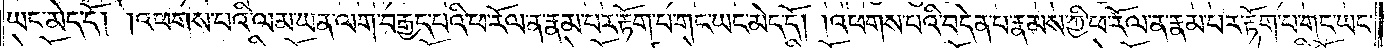ཡང་མེད་དོ། །འཕགས་པའི་ལམ་ཡན་ལག་བརྒྱད་པའི་ཕ་རོལ་ན་རྣམ་པར་རྟོག་པ་གང་ཡང་མེད་དོ། །འཕགས་པའི་བདེན་པ་རྣམས་ཀྱི་ཕ་རོལ་ན་རྣམ་པར་རྟོག་པ་གང་ཡང་
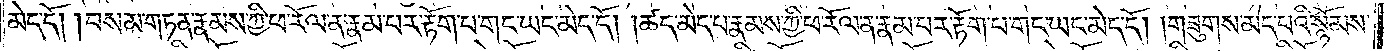མེད་དོ། །བསམ་གཏན་རྣམས་ཀྱི་ཕ་རོལ་ན་རྣམ་པར་རྟོག་པ་གང་ཡང་མེད་དོ། །ཚད་མེད་པ་རྣམས་ཀྱི་ཕ་རོལ་ན་རྣམ་པར་རྟོག་པ་གང་ཡང་མེད་དེ། །གཟུགས་མེད་པའི་སྙོམས་
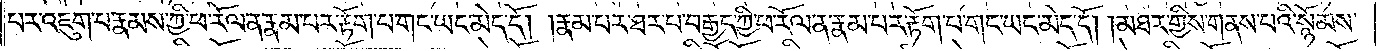པར་འཇུག་པ་རྣམས་ཀྱི་ཕ་རོལ་ན་རྣམ་པར་རྟོག་པ་གང་ཡང་མེད་དོ། །རྣམ་པར་ཐར་པ་བརྒྱད་ཀྱི་ཕ་རོལ་ན་རྣམ་པར་རྟོག་པ་གང་ཡང་མེད་དོ། །མཐར་གྱིས་གནས་པའི་སྙོམས་
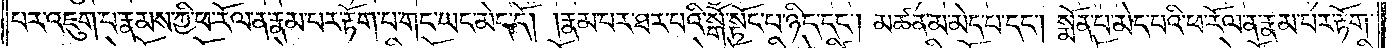པར་འཇུག་པ་རྣམས་ཀྱི་ཕ་རོལ་ན་རྣམ་པར་རྟོག་པ་གང་ཡང་མེད་དོ། །རྣམ་པར་ཐར་པའི་སྒོ་སྟོང་པ་ཉིད་དང༌། མཚན་མ་མེད་པ་དང༌། སྨོན་པ་མེད་པའི་ཕ་རོལ་ན་རྣམ་པར་རྟོག་
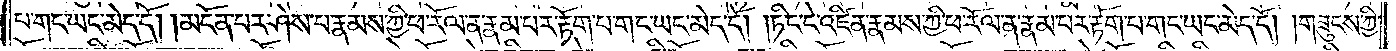པ་གང་ཡང་མེད་དོ། །མངོན་པར་ཤེས་པ་རྣམས་ཀྱི་ཕ་རོལ་ན་རྣམ་པར་རྟོག་པ་གང་ཡང་མེད་དོ། །ཏིང་ངེ་འཛིན་རྣམས་ཀྱི་ཕ་རོལ་ལ་རྣམ་པར་རྟོག་པ་གང་ཡང་མེད་དོ། །གཟུངས་ཀྱི་
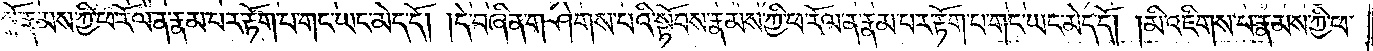སྒོ་རྣམས་ཀྱི་ཕ་རོལ་ན་རྣམ་པར་རྟོག་པ་གང་ཡང་མེད་དོ། །དེ་བཞིན་གཤེགས་པའི་སྟོབས་རྣམས་ཀྱི་ཕ་རོལ་དངོ་ན་རྣམ་པར་རྟོག་པ་གང་ཡང་མེད་དོ། །མི་འཇིགས་པ་རྣམས་ཀྱི་ཕ་
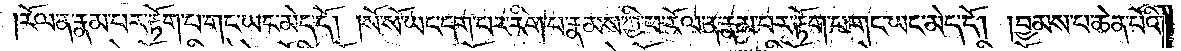རོལ་ན་རྣམ་པར་རྟོག་པ་གང་ཡང་མེད་དོ། །སོ་སོ་ཡང་དག་བར་རིག་པ་རྣམས་ཀྱི་ཕ་རོལ་ན་རྣམ་པར་རྟོག་པ་གང་ཡང་མེད་དོ། །བྱམས་པ་ཆེན་པོའི་
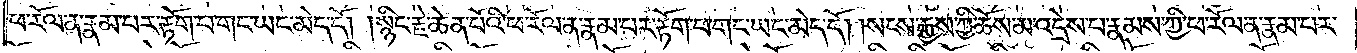ཕ་རོལ་ན་རྣམ་པར་རྟོག་པ་གང་ཡང་མེད་དོ། །སྙིང་རྗེ་ཆེན་པོའི་ཕ་རོལ་ན་རྣམ་པར་རྟོག་པ་གང་ཡང་མེད་དོ། །སངས་རྒྱས་ཀྱི་ཆོས་མ་འདྲེས་པ་རྣམས་ཀྱི་ཕ་རོལ་ན་རྣམ་པར་
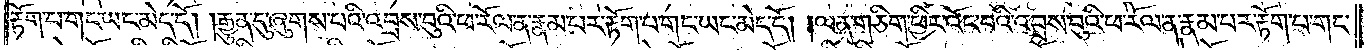རྟོག་པ་གང་ཡང་མེད་དོ། །རྒྱུན་དུ་ཞུགས་པའི་འབྲས་བུའི་ཕ་རོལ་ན་རྣམ་པར་རྟོག་པ་གང་ཡང་མེད་དོ། །ལན་གཅིག་ཕྱིར་འོང་བའི་འབྲས་བུའི་ཕ་རོལ་ན་རྣམ་པར་རྟོག་པ་གང་
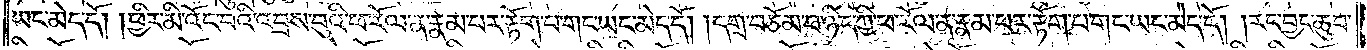ཡང་མེད་དོ། །ཕྱིར་མི་འོང་བའི་འབྲས་བུའི་ཕ་རོལ་ན་རྣམ་པར་རྟོག་པ་གང་ཡང་མེད་དོ། །དགྲ་བཅོམ་པ་ཉིད་ཀྱི་ཕ་རོལ་ན་རྣམ་པར་རྟོག་པ་གང་ཡང་མེད་དོ། །རང་བྱང་ཆུབ་
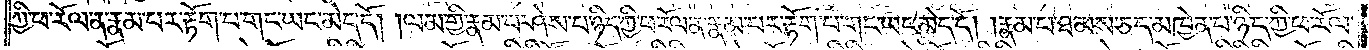ཀྱི་ཕ་རོལ་ན་རྣམ་པར་རྟོག་པ་གང་ཡང་མེད་དོ། །ལམ་གྱི་རྣམ་པ་ཤེས་པ་ཉིད་ཀྱི་ཕ་རོལ་ན་རྣམ་པར་རྟོག་པ་གང་ཡང་མེད་དོ། །རྣམ་པ་ཐམས་ཅད་མཁྱེན་པ་ཉིད་ཀྱི་ཕ་རོལ་
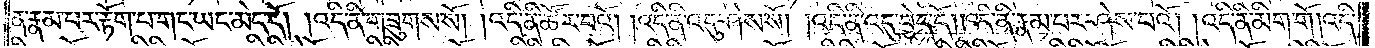ན་རྣམ་པར་རྟོག་པ་གང་ཡང་མེད་དོ། །འདི་ནི་གཟུགས་སོ། །འདི་ནི་ཚོར་བའོ། །འདི་ནི་འདུ་ཤེས་སོ། །འདི་ནི་འདུ་བྱེད་དོ། །འདི་ནི་རྣམ་པར་ཤེས་པའོ། །འདི་ནི་མིག་གོ། །འདི་
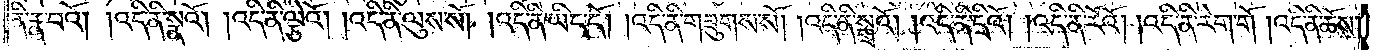ནི་རྣ་བའོ། །འདི་ནི་སྣའོ། །འདི་ནི་ལྕེའོ། །འདི་ནི་ལུས་སོ། །འདི་ནི་ཡིད་དོ། །འདི་ནི་གཟུགས་སོ། །འདི་ནི་སྒྲའོ། །འདི་ནི་དྲིའོ། །འདི་ནི་རོའོ། །འདི་ནི་རེག་གོ། །འདི་ནི་ཆོས་
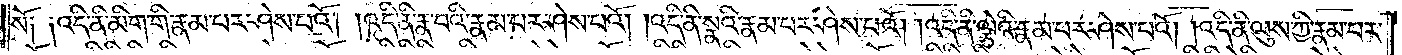སོ༑ ༑འདི་ནི་མིག་གི་རྣམ་པར་ཤེས་པའོ། །འདི་ནི་རྣ་བའི་རྣམ་པར་ཤེས་པའོ། །འདི་ནི་སྣའི་རྣམ་པར་ཤེས་པའོ། །འདི་ནི་ལྕེའི་རྣམ་པར་ཤེས་པའོ། །འདི་ནི་ལུས་ཀྱི་རྣམ་པར་
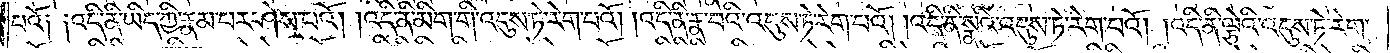པའོ༑ ༑འདི་ནི་ཡིད་ཀྱི་རྣམ་པར་ཤེས་པའོ། །འདི་ནི་མིག་གི་འདུས་ཏེ་རེག་པའོ། །འདི་ནི་རྣ་བའི་འདུས་ཏེ་རེག་པའོ། །འདི་ནི་སྣའི་འདུས་ཏེ་རེག་པའོ། །འདི་ནི་ལྕེའི་འདུས་ཏེ་རེག་
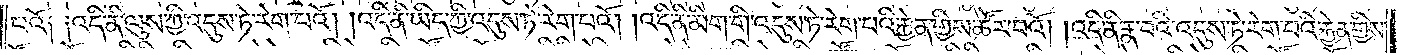པའོ༑ ༑འདི་ནི་ལུས་ཀྱི་འདུས་ཏེ་རེག་པའོ། །འདི་ནི་ཡིད་ཀྱི་འདུས་ཏེ་རེག་པའོ། །འདི་ནི་མིག་གི་འདུས་ཏེ་རེག་པའི་རྐྱེན་གྱིས་ཚོར་བའོ། །འདི་ནི་རྣ་བའི་འདུས་ཏེ་རེག་པའི་རྐྱེན་གྱིས་
